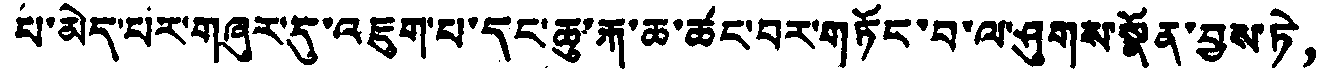པ་མེད་པར་གཞུར་དུ་འཇུག་པ་དང་ཆུ་རྐ་ཆ་ཚང་བར་གཏོང་བ་ལ་ཤུགས་སྣོན་བྱས་ཏེ，
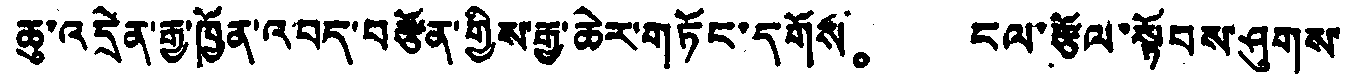ཆུ་འདྲེན་རྒྱ་ཁྱོན་འབད་བརྩོན་གྱིས་རྒྱ་ཆེར་གཏོང་དགོས。 ངལ་རྩོལ་སྟོབས་ཤུགས་
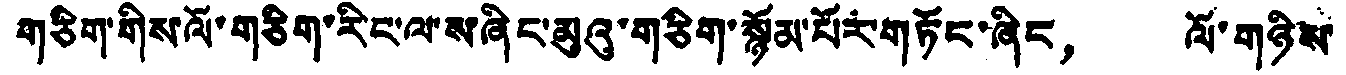གཅིག་གིས་ལོ་གཅིག་རིང་ལ་ས་ཞིང་མུའུ་གཅིག་སྙོམ་པོར་གཏོང་ཞིང， ལོ་གཉིས་
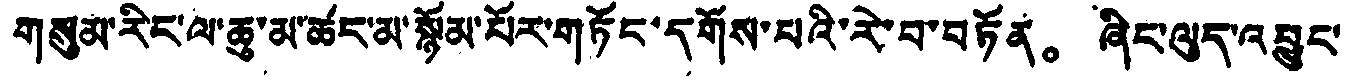གསུམ་རིང་ལ་ཆུ་མ་ཚང་མ་སྙོམ་པོར་གཏོང་དགོས་པའི་རེ་བ་བཏོན。 ཞིང་ལུད་འབྱུང་
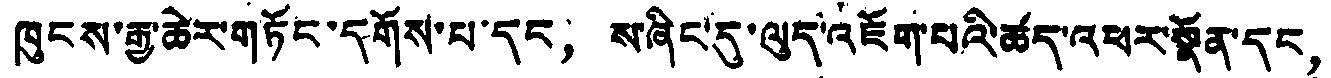ཁུངས་རྒྱ་ཆེར་གཏོང་དགོས་པ་དང， ས་ཞིང་དུ་ལུད་འཇོག་པའི་ཚད་འཕར་སྣོན་དང，
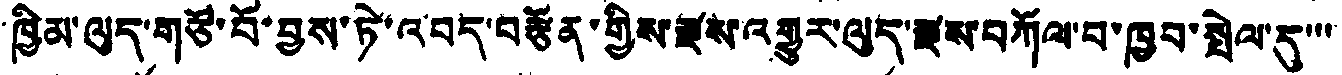ཁྱིམ་ལུད་གཙོ་བོ་བྱས་ཏེ་འབད་བརྩོན་གྱིས་རྫས་འགྱུར་ལུད་རྫས་བཀོལ་བ་ཁྱབ་སྤེལ་དུ་་་
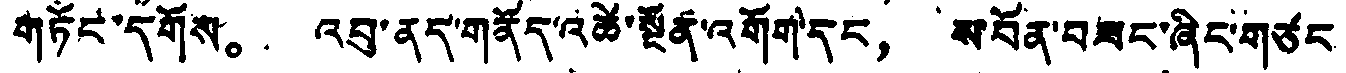གཏོང་དགོས。 འབུ་ནད་གནོད་འཚེ་སྔོན་འགོག་དང， ས་བོན་བཟང་ཞིང་གཙང
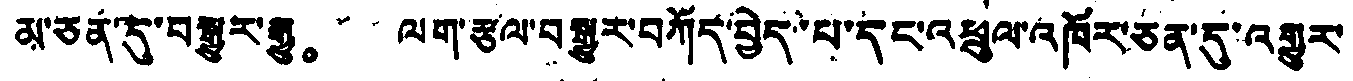མ་ཅན་དུ་བསྒྱུར་རྒྱུ。 ལག་རྩལ་བསྒྱུར་བཀོད་བྱེད་པ་དང་འཕྲུལ་འཁོར་ཅན་དུ་འགྱུར་
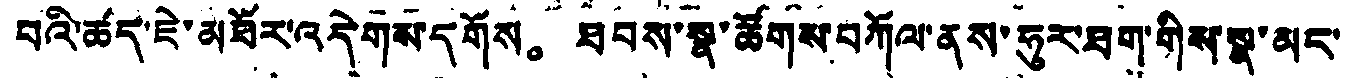བའི་ཚད་ཇེ་མཐོར་འདེགས་དགོས。 ཐབས་སྣ་ཚོགས་བཀོལ་ནས་ཧུར་ཐག་གིས་སྣ་མང་
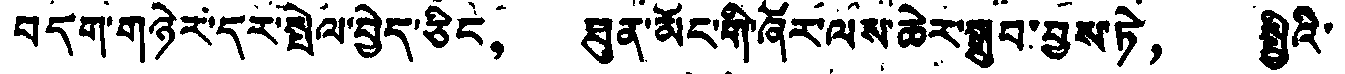བདག་གཉེར་དར་སྤེལ་བྱེད་ཅིང， ཐུན་མོང་གི་ཞོར་ལས་ཆེར་སྒྲུབ་བྱས་ཏེ， སྤྱིའི་
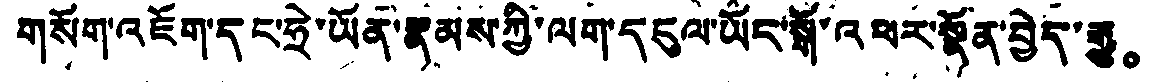གསོག་འཇོག་དང་ཧྲེ་ཡོན་རྣམས་ཀྱི་ལག་དངུལ་ཡོད་སྒོ་འཕར་སྣོན་བྱེད་རྒྱུ。
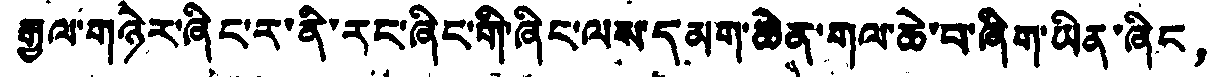རྒྱལ་གཉེར་ཞིང་ར་ནི་རང་ཞིང་གི་ཞིང་ལས་དམག་ཆེན་གལ་ཆེ་བ་ཞིག་ཡིན་ཞིང，
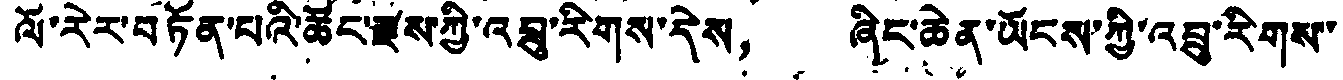ལོ་རེར་བཏོན་པའི་ཚོང་རྫས་ཀྱི་འབྲུ་རིགས་དེས， ཞིང་ཆེན་ཡོངས་ཀྱི་འབྲུ་རིགས་
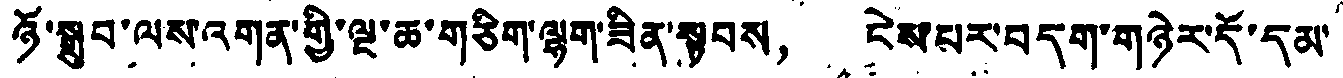ཉོ་སྒྲུབ་ལས་འགན་གྱི་ལྔ་ཆ་གཅིག་ལྷག་ཟིན་སྟབས， ངེས་པར་བདག་གཉེར་དོ་དམ་
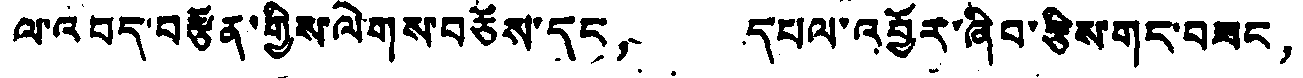ལ་འབད་བརྩོན་གྱིས་ལེགས་བཅོས་དང， དཔལ་འབྱོར་ཞིབ་རྩིས་གད་བཟང，
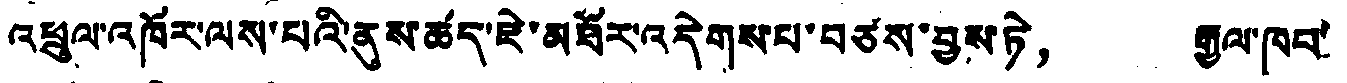འཕྲུལ་འཁོར་ལས་པའི་ནུས་ཚད་ཇེ་མཐོར་འདེགས་པ་བཙས་བྱས་ཏེ， རྒྱལ་ཁབ་
